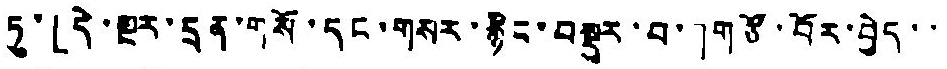ཏུ་「དེ་སྔར་དྲན་གསོ་དང་གསར་རྙིང་བསྡུར་བ་」གཙོ་བོར་བྱེད་་
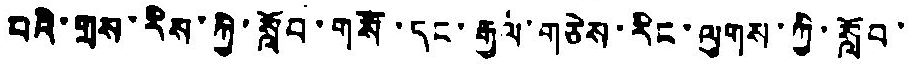པའི་གྲས་རིས་ཀྱི་སློབ་གསོ་དང་རྒྱལ་གཅེས་རིང་ལུགས་ཀྱི་སློབ་
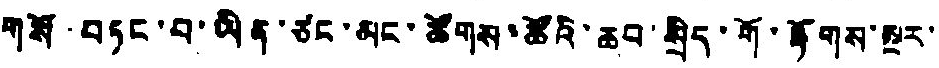གསོ བཏང་བ་ཡིན་ཙང་མང་ཚོགས་ཚོའི་ཆབ་སྲིད་གོ་རྟོགས་སྔར་
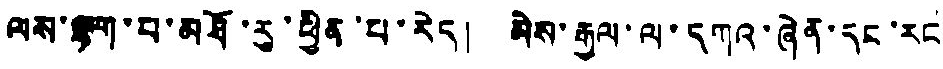ལས་ལྷག་པ་མཐོ་རུ་ཕྱིན་པ་རེད། མེས་རྒྱལ་ལ་དཀའ་ཞེན་དང་རང
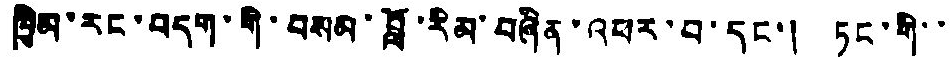ཁྱིམ་རང་བདག་གི་བསམ་བློ་རིམ་བཞིན་འཕར་བ་དང་། ཏང་གི་་
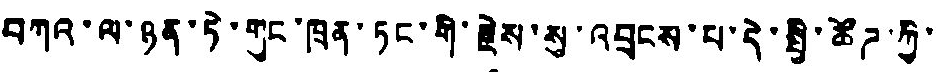བཀའ་ལ་ཉན་ཏེ་གུང་ཁྲན་ཏང་གི་རྗེས་སུ་འབྲངས་པ་དེ་སྤྱི་ཚོཌ་ཀྱི་
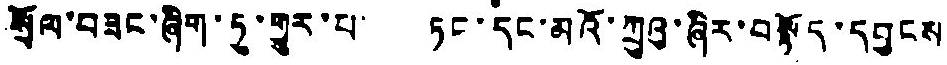སྒྲོལ་བཟང་ཞིག་ཏུ་གྱུར་པ་ ཏང་དང་མའོ་ཀྲུའུ་ཞིར་བསྟོད་དབྱངས
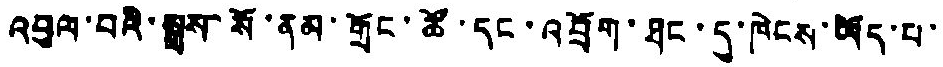འབུལ་བའི་སྒྲས་སོ་ནམ་གྲོང་ཚོ་དང་འབྲོག་ཐང་དུ་ཁེངས་ཡོད་པ་
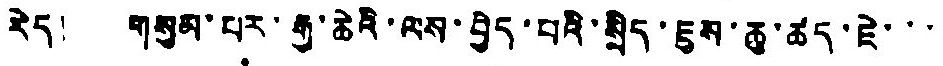རེད། གསུམ་པར་རྒྱ་ཆེའི་ལས་བྱེད་པའི་སྲིད་ཇུས་ཆུ་ཚད་ཇེ་་་
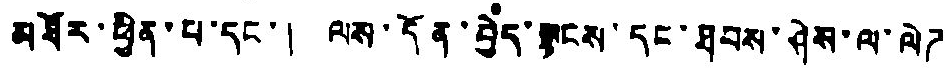མཐོར་ཕྱིན་པ་དང་། ལས་དོན་བྱེད་སྟངས་དང་ཐབས་ཤེས་ལ་ལེཌ
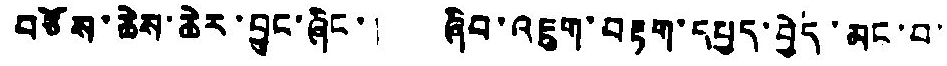བཅོས་ཆེས་ཆེར་བྱུང་ཞིང་། ཞིབ་འཇུག་བརྟག་དཔྱད་བྱེད་མང་བ་
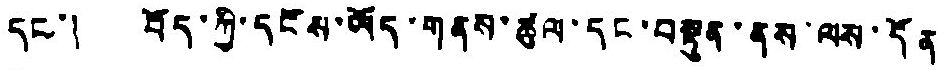དང་། བོད་ཀྱི་དངོས་ཡོད་གནས་ཚུལ་དང་བསྟུན་ནས་ལས་དོན
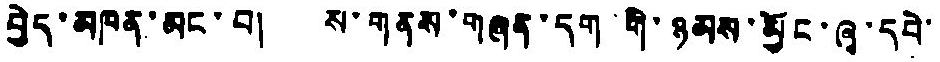བྱེད་མཁན་མང་བ། ས་གནས་གཞན་དག་གི་ཉམས་མྱོང་ཞྭ་དབེ་
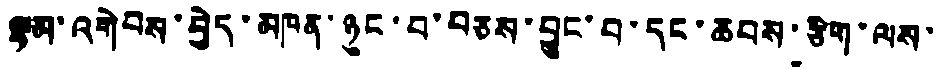ལྷག་འགེབས་བྱེད་མཁན་ཉུང་བ་བཅས་བྱུང་བ་དང་ཆབས་ཅིག་ལས་
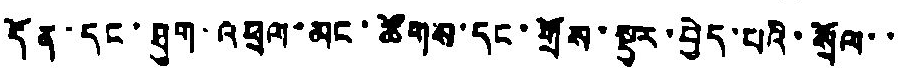དོན་དང་ཐུག་འཕྲལ་མང་ཚོགས་དང་གྲོས་སྡུར་བྱེད་པའི་སྲོལ་་
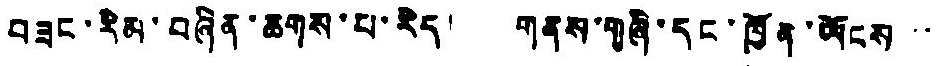བཟང་རིམ་བཞིན་ཆགས་པ་རེད། གནས་གཞི་དང་ཁྱོན་ཡོངས་་
